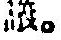議。
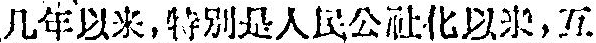几年以来，特别是人民公社化以来，互
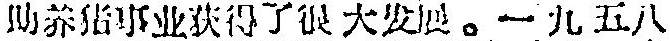助养猪事业获得了很大发展。一九五八
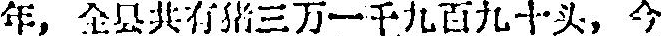年，全县共有猪三万一千九百九十头，今
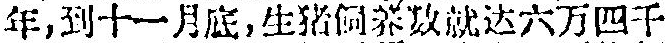年，到十一月底，生猪飼养数就达六万四千
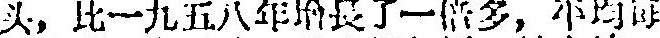头，比一九五八年增長了一倍多，平均每
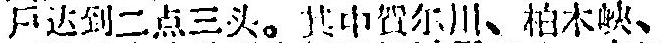戶达到二点三头。其中賀尔川、柏木峽、
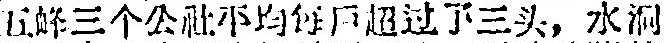五峰三个公社平均每户超过了三头，水洞
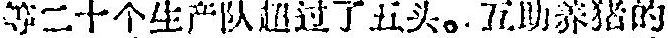等二十个生产队超过了五头。互助养猪的
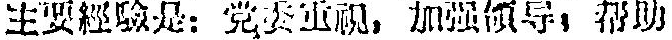主要經驗是：党委重視，加強領导，帮助
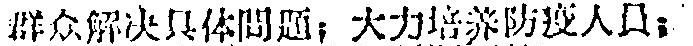群众解決具体問題；大力培养防疫人員；
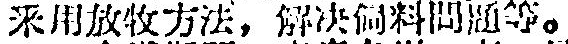采用放牧方法，解决飼料問題等。
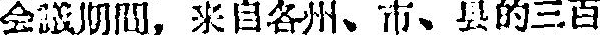会議期間，来自各州、市、县的三百
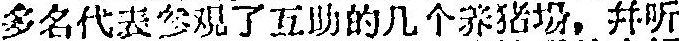多名代表参覌了互助的几个养猪場，并听
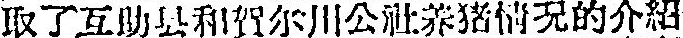取了互助县和賀尔川公社养猪情况的介紹
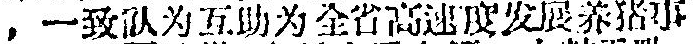，一致认为互助为全省高速度发展养猪事
